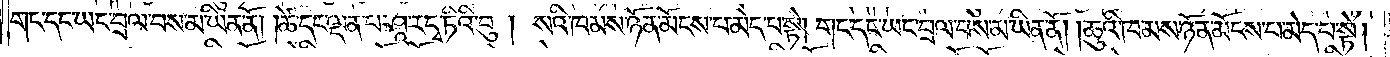གང་དང་ཡང་བྲལ་བས་མ་ཡིན་ནོ། །ཚེ་དང་ལྡན་པ་ཤཱ་ར་དྭ་ཏིའི་བུ། སའི་ཁམས་ཉོན་མོངས་པ་མེད་པ་སྟེ། གང་དང་ཡང་བྲལ་བས་མ་ཡིན་ནོ། །ཆུའི་ཁམས་ཉོན་མོངས་པ་མེད་པ་སྟེ།
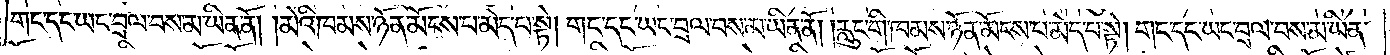གང་དང་ཡང་བྲལ་བས་མ་ཡིན་ནོ། །མེའི་ཁམས་ཉོན་མོངས་པ་མེད་པ་སྟེ། གང་དང་ཡང་བྲལ་བས་མ་ཡིན་ནོ། །རླུང་གི་ཁམས་ཉོན་མོངས་པ་མེད་པ་སྟེ། གང་དང་ཡང་བྲལ་བས་མ་ཡིན་
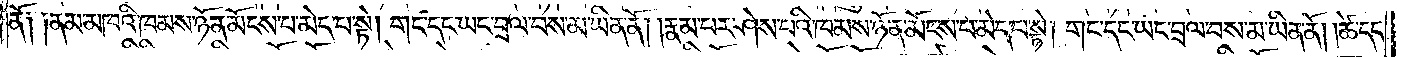ནོ༑ ༑ནམ་མཁའི་ཁམས་ཉོན་མོངས་པ་མེད་པ་སྟེ། གང་དང་ཡང་བྲལ་བས་མ་ཡིན་ནོ། །རྣམ་པར་ཤེས་པའི་ཁམས་ཉོན་མོངས་པ་མེད་པ་སྟེ། གང་དང་ཡང་བྲལ་བས་མ་ཡིན་ནོ། །ཚེ་དང་
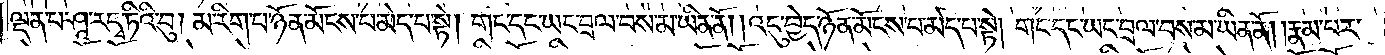ལྡན་པ་ཤཱ་ར་དྭ་ཏིའི་བུ། མ་རིག་པ་ཉོན་མོངས་པ་མེད་པ་སྟེ། གང་དང་ཡང་བྲལ་བས་མ་ཡིན་ནོ། །འདུ་བྱེད་ཉོན་མོངས་པ་མེད་པ་སྟེ། གང་དང་ཡང་བྲལ་བས་མ་ཡིན་ནོ། །རྣམ་པར་
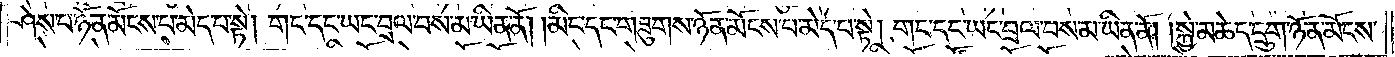ཤེས་པ་ཉོན་མོངས་པ་མེད་པ་སྟེ། གང་དང་ཡང་བྲལ་བས་མ་ཡིན་ནོ། །མིང་དང་གཟུགས་ཉོན་མོངས་པ་མེད་པ་སྟེ། གང་དང་ཡང་བྲལ་བས་མ་ཡིན་ནོ། །སྐྱེ་མཆེད་དྲུག་ཉོན་མོངས་
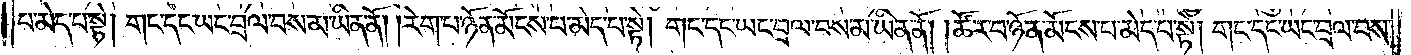པ་མེད་པ་སྟེ། གང་དང་ཡང་བྲལ་བས་མ་ཡིན་ནོ། །རེག་པ་ཉོན་མོངས་པ་མེད་པ་སྟེ། གང་དང་ཡང་བྲལ་བས་མ་ཡིན་ནོ། །ཚོར་བ་ཉོན་མོངས་པ་མེད་པ་སྟེ། གང་དང་ཡང་བྲལ་བས་
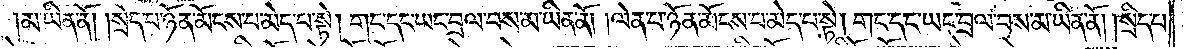མ་ཡིན་ནོ། །སྲེད་པ་ཉོན་མོངས་པ་མེད་པ་སྟེ། གང་དང་ཡང་བྲལ་བས་མ་ཡིན་ནོ། །ལེན་པ་ཉོན་མོངས་པ་མེད་པ་སྟེ། གང་དང་ཡང་བྲལ་བས་མ་ཡིན་ནོ། །སྲིད་པ་
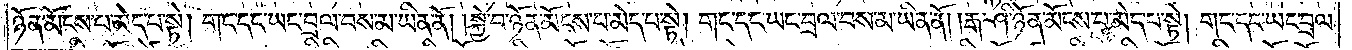ཉོན་མོངས་པ་མེད་པ་སྟེ། གང་དང་ཡང་བྲལ་བས་མ་ཡིན་ནོ། །སྐྱེ་བ་ཉོན་མོངས་པ་མེད་པ་སྟེ། གང་དང་ཡང་བྲལ་བས་མ་ཡིན་ནོ། །རྒ་ཤི་ཉོན་མོངས་པ་མེད་པ་སྟེ། གང་དང་ཡང་བྲལ་
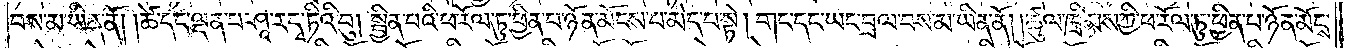བས་མ་ཡིན་ནོ། །ཚེ་དང་ལྡན་པ་ཤཱ་ར་དྭ་ཏིའི་བུ། སྦྱིན་པའི་ཕ་རོལ་ཏུ་ཕྱིན་པ་ཉོན་མོངས་པ་མེད་པ་སྟེ། གང་དང་ཡང་བྲལ་བས་མ་ཡིན་ནོ། །ཚུལ་ཁྲིམས་ཀྱི་ཕ་རོལ་ཏུ་ཕྱིན་པ་ཉོན་མོངས་
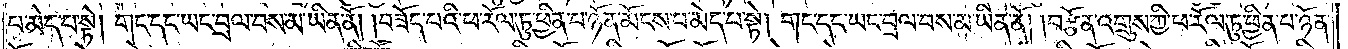པ་མེད་པ་སྟེ། གང་དང་ཡང་བྲལ་བས་མ་ཡིན་ནོ། །བཟོད་པའི་ཕ་རོལ་ཏུ་ཕྱིན་པ་ཉོན་མོངས་པ་མེད་པ་སྟེ། གང་དང་ཡང་བྲལ་བས་མ་ཡིན་ནོ། །བརྩོན་འགྲུས་ཀྱི་ཕ་རོལ་ཏུ་ཕྱིན་པ་ཉོན་
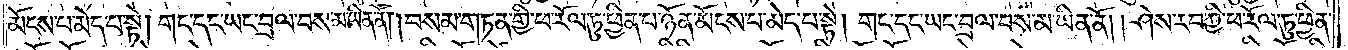མོངས་པ་མེད་པ་སྟེ། གང་དང་ཡང་བྲལ་བས་མ་ཡིན་ནོ། །བསམ་གཏན་གྱི་ཕ་རོལ་ཏུ་ཕྱི་ན་ཉོན་མོངས་པ་མེད་པ་སྟེ། གང་དང་ཡང་བྲལ་བས་མ་ཡིན་ནོ། །ཤེས་རབ་ཀྱི་ཕ་རོལ་ཏུ་ཕྱིན་
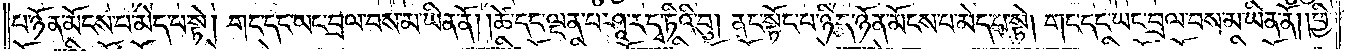པ་ཉོན་མོངས་པ་མེད་པ་སྟེ། གང་དང་ཡང་བྲལ་བས་མ་ཡིན་ནོ། །ཚེ་དང་ལྡན་པ་ཤཱ་ར་དྭ་ཏིའི་བུ། ནང་སྟོང་པ་ཉིད་ཉོན་མོངས་པ་མེད་པ་སྟེ། གང་དང་ཡང་བྲལ་བས་མ་ཡིན་ནོ། །ཕྱི་
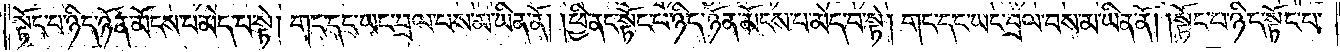སྟོང་པ་ཉིད་ཉོན་མོངས་པ་མེད་པ་སྟེ། གང་དང་ཡང་བྲལ་བས་མ་ཡིན་ནོ། །ཕྱི་ནང་སྟོང་པ་ཉིད་ཉོན་མོངས་པ་མེད་པ་སྟེ། གང་དང་ཡང་བྲལ་བས་མ་ཡིན་ནོ། །སྟོང་པ་ཉིད་སྟོང་པ་
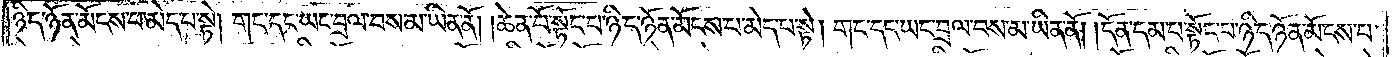ཉིད་ཉོན་མོངས་པ་མེད་པ་སྟེ། གང་དང་ཡང་བྲལ་བས་མ་ཡིན་ནོ། །ཆེན་པོ་སྟོང་པ་ཉིད་ཉོན་མོངས་པ་མེད་པ་སྟེ། གང་དང་ཡང་བྲལ་བས་མ་ཡིན་ནོ། །དོན་དམ་པ་སྟོང་པ་ཉིད་ཉོན་མོངས་པ་
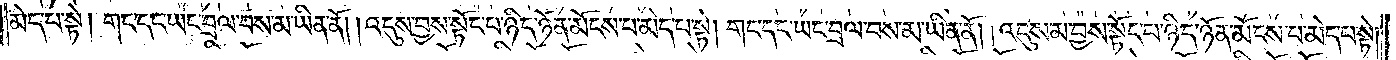མེད་པ་སྟེ། གང་དང་ཡང་བྲལ་བས་མ་ཡིན་ནོ། །འདུས་བྱས་སྟོང་པ་ཉིད་ཉོན་མོངས་པ་མེད་པ་སྟེ། གང་དང་ཡང་བྲལ་བས་མ་ཡིན་ནོ། །འདུས་མ་བྱས་སྟོང་པ་ཉིད་ཉོན་མོངས་པ་མེད་པ་སྟེ།
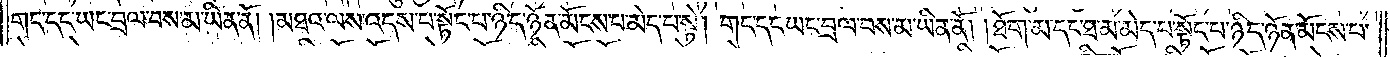གང་དང་ཡང་བྲལ་བས་མ་ཡིན་ནོ། །མཐའ་ལས་འདས་པ་སྟོང་པ་ཉིད་ཉོན་མོངས་པ་མེད་པ་སྟེ། གང་དང་ཡང་བྲལ་བས་མ་ཡིན་ནོ། །ཐོག་མ་དང་ཐ་མ་མེད་པ་སྟོང་པ་ཉིད་ཉོན་མོངས་པ་
